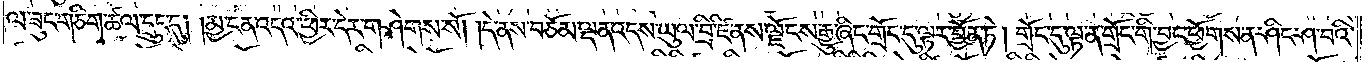ལ་ཟུང་གཅིག་ཚལ་དྲུང་དུ། །མྱ་ངན་འདའ་ཕྱིར་དེར་གཤེགས་སོ། །དེ་ནས་བཅོམ་ལྡན་འདས་ཡུལ་བྲི་ཛི་ནས་ལྗོངས་རྒྱུ་ཞིང་གྲོང་དུ་ལྟར་བྱོན་ཏེ། གྲོང་དུ་ལྟ་ན་གྲོང་གི་བྱང་ཕྱོགས་ན་ཤིང་ཤ་བའི་
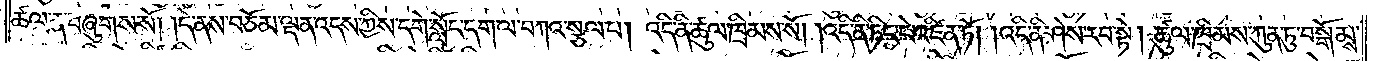ཚལ་ན་བཞུགས་སོ། །དེ་ནས་བཅོམ་ལྡན་འདས་ཀྱིས་དགེ་སློང་དག་ལ་བཀའ་སྩལ་པ། འདི་ནི་ཚུལ་ཁྲིམས་སོ། །འདི་ནི་ཏིང་ངེ་འཛིན་ཏོ། །འདི་ནི་ཤེས་རབ་སྟེ། ཚུལ་ཁྲིམས་ཀུན་ཏུ་བསྒོམས་
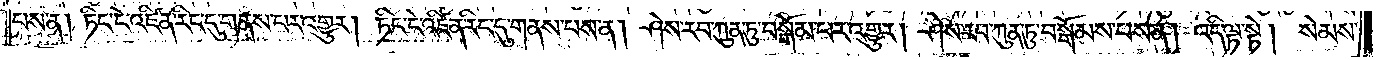པས་ན། ཏིང་ངེ་འཛིན་རིང་དུ་གནས་པར་འགྱུར། ཏིང་ངེ་འཛིན་རིང་དུ་གནས་པས་ན། ཤེས་རབ་ཀུན་ཏུ་བསྒོམ་པར་འགྱུར། ཤེས་རབ་ཀུན་ཏུ་བསྒོམས་པས་ན། འདི་ལྟ་སྟེ། སེམས་
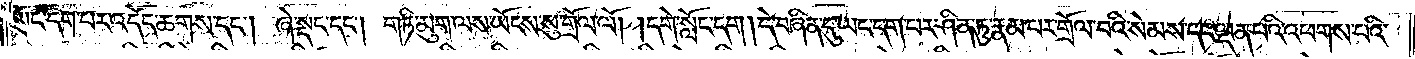ཡང་དག་པར་འདོད་ཆགས་དང༌། ཞེ་སྡང་དང༌། གཏི་མུག་ལས་ཡོངས་སུ་གྲོལ་ལོ། །དགེ་སློང་དག །དེ་བཞིན་དུ་ཡང་དག་པར་ཤིན་ཏུ་རྣམ་པར་གྲོལ་བའི་སེམས་དང་ལྡན་པའི་འཕགས་པའི་
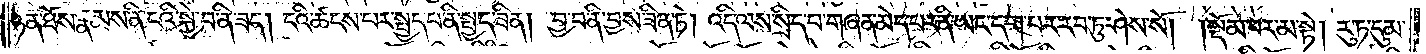ཉན་ཐོས་རྣམས་ནི་ངའི་སྐྱེ་བ་ནི་ཟད། ངའི་ཚངས་པར་སྤྱད་པ་ནི་སྤྱད་ཟིན། བྱ་བ་ནི་བྱས་ཟིན་ཏེ། འདི་ལས་སྲིད་པ་གཞན་མེད་པར་ནི་ཡང་དག་པར་རབ་ཏུ་ཤེས་སོ། །སྡོམ་བར་མ་སྟེ། རུ་ཏ་དུམ་
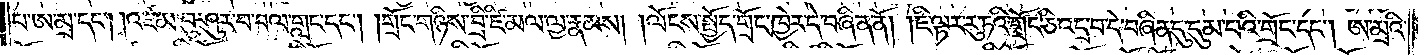པ་ཨ་མྲ་དང༌། །འཛམ་བུ་ཤུར་བ་བལ་གླང་དང༌། །གྲོང་གཉིས་བྲི་ཛི་མལ་ལྱ་རྣམས། །ལོངས་སྤྱོད་གྲོང་ཁྱེར་དེ་བཞིན་ནོ། །ཇི་ལྟར་རུ་ཏའི་གྲོང་ཅི་འདྲ་བ་དེ་བཞིན་དུ་དུམ་པའི་གྲོང་དང༌། ཨ་མྲའི་
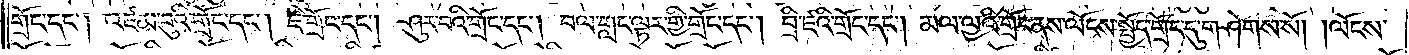གྲོང་དང༌། འཛམ་བུའི་གྲོང་དང༌། ཛི་གྲོང་དང༌། ཤུར་བའི་གྲོང་དང༌། བལ་གླང་ལྟར་གྱི་གྲོང་དང༌། བྲི་ཛའི་གྲོང་དང༌། མལ་ལྱའི་གྲོང་ནས་ལོངས་སྤྱོད་གྲོང་དུ་གཤེགས་སོ། །ལོངས་
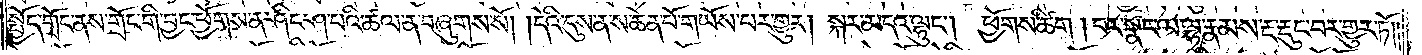སྤྱོད་གྲོང་ནས་གྲོང་གི་བྱང་ཕྱོགས་ན་ཤིང་ཤ་པའི་ཚལ་ན་བཞུགས་སོ། །དེའི་དུས་ན་ས་ཆེན་པོ་གཡོས་པར་གྱུར། སྐར་མདའ་ལྷུང༌། ཕྱོགས་ཚིག །བར་སྣང་ལ་ལྷ་རྣམས་རྔ་རྡུང་བར་གྱུར་ཏོ། །
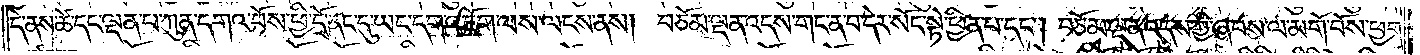དེ་ནས་ཚེ་དང་ལྡན་པ་ཀུན་དགའ་བོས་ཕྱི་དྲོ་ནང་དུ་ཡང་དག་འཇོག་ལས་ལངས་ནས། བཅོམ་ལྡན་འདས་གང་ན་བ་དེར་སོང་སྟེ་ཕྱིན་པ་དང༌། བཅོམ་ལྡན་འདས་ཀྱི་ཞབས་ལ་མགོ་བོས་ཕྱག་
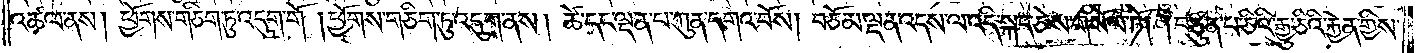འཚལ་ནས། ཕྱོགས་གཅིག་ཏུ་འདུག་གོ །ཕྱོགས་གཅིག་ཏུ་འདུག་ནས། ཚེ་དང་ལྡན་པ་ཀུན་དགའ་བོས། བཅོམ་ལྡན་འདས་ལ་འདི་སྐད་ཅེས་གསོལ་ཏོ། །བཙུན་པ་ཅིའི་རྒྱུ་ཅིའི་རྐྱེན་གྱིས་
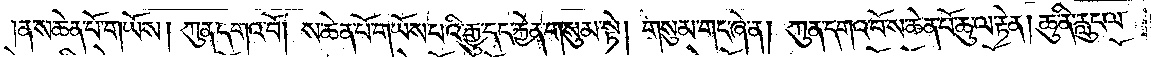ན་ས་ཆེན་པོ་གཡོས། ཀུན་དགའ་བོ། །ས་ཆེན་པོ་གཡོས་པའི་རྒྱུ་དང་རྐྱེན་གསུམ་སྟེ། གསུམ་གང་ཞེ་ན། ཀུན་དགའ་བོ་ས་ཆེན་པོ་ཆུ་ལ་རྟེན། ཆུ་ནི་རླུང་ལ་
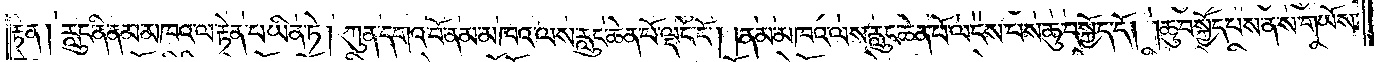རྟེན། རླུང་ནི་ནམ་མཁའ་ལ་རྟེན་པ་ཡིན་ཏེ། ཀུན་དགའ་བོ་ནམ་མཁའ་ལས་རླུང་ཆེན་པོ་ལྡང་ངོ༌། །ནམ་མཁའ་ལས་རླུང་ཆེན་པོ་ལངས་པས་ཆུ་བསྐྱོད་དོ། །ཆུ་བསྐྱོད་པས་ན་ས་གཡོས་
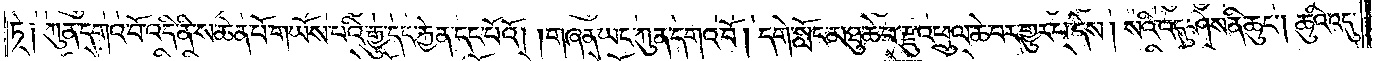ཏེ༑ ཀུན་དགའ་བོ་འདི་ནི་ས་ཆེན་པོ་གཡོས་པའི་རྒྱུ་དང་རྐྱེན་དང་པོའོ། །གཞན་ཡང་ཀུན་དགའ་བོ། དགེ་སློང་མཐུ་ཆེ་བ་རྫུ་འཕྲུལ་ཆེ་བར་གྱུར་པ་དེས། སའི་འདུ་ཤེས་ནི་ཆུང༌། ཆུའི་འདུ་
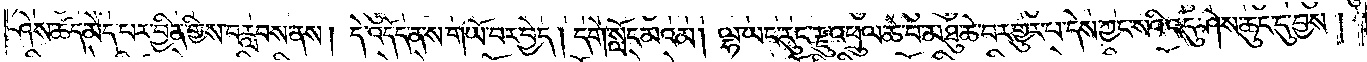ཤེས་ཚད་མེད་པར་བྱིན་གྱིས་བརླབས་ནས། དེ་འདོད་ན་ས་གཡོ་བར་བྱེད། དགེ་སློང་མའམ། ལྷ་ཡང་རུང་རྫུ་འཕྲུལ་ཆེ་བ་མཐུ་ཆེ་བར་གྱུར་པ་དེས་ཀྱང་སའི་འདུ་ཤེས་ཆུང་དུ་བྱས།
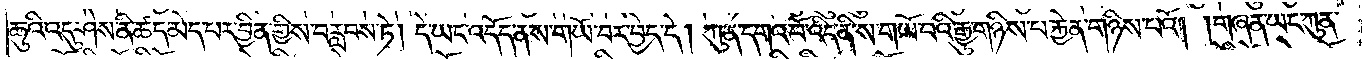ཆུའི་འདུ་ཤེས་ནི་ཚད་མེད་པར་བྱིན་གྱིས་བརླབས་ཏེ། དེ་ཡང་འདོད་ན་ས་གཡོ་བར་བྱེད་དེ། ཀུན་དགའ་བོ་འདི་ནི་ས་གཡོ་བའི་རྒྱུ་གཉིས་པ་རྐྱེན་གཉིས་པའོ། །གཞན་ཡང་ཀུན་
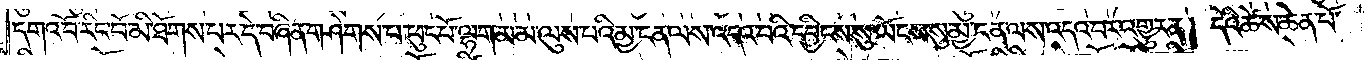དགའ་བོ་རིང་པོ་མི་ཐོགས་པར་དེ་བཞིན་གཤེགས་པ་ཕུང་པོ་ལྷག་མ་མ་ལུས་པའི་མྱ་ངན་ལས་འདའ་བའི་དབྱིངས་སུ་ཡོངས་སུ་མྱ་ངན་ལས་འདའ་བར་འགྱུར་ན། དེའི་ཚེ་ས་ཆེན་པོ་
